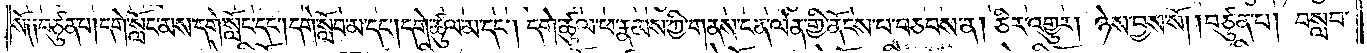སོ༑ ༑བཙུན་པ། དགེ་སློང་མས་དགེ་སློང་དང༌། དགེ་སློབ་མ་དང༌། དགེ་ཚུལ་མ་དང༌། དགེ་ཚུལ་ཕ་རྣམས་ཀྱི་གནས་ངན་ལེན་གྱི་ནོངས་པ་བཅབས་ན། ཅིར་འགྱུར། ཉེས་བྱས་སོ། །བཙུན་པ། བསླབ་
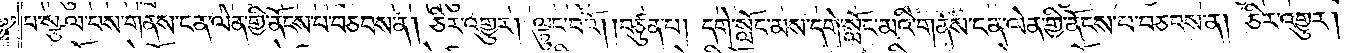པ་སྩལ་པས་གནས་ངན་ལེན་གྱི་ནོངས་པ་བཅབས་ན། ཅིར་འགྱུར། ལྟུང་བའོ། །བཙུན་པ། དགེ་སློང་མས་དགེ་སློང་མའི་གནས་ངན་ལེན་གྱི་ནོངས་པ་བཅབས་ན། ཅིར་འགྱུར།
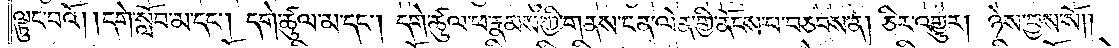ལྟུང་བའོ། །དགེ་སློབ་མ་དང༌། དགེ་ཚུལ་མ་དང༌། དགེ་ཚུལ་ཕ་རྣམས་ཀྱི་གནས་ངན་ལེན་གྱི་ནོངས་པ་བཅབས་ན། ཅིར་འགྱུར། ཉེས་བྱས་སོ༎
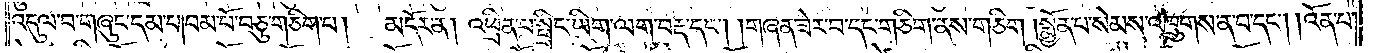འདུལ་བ་གཞུང་དམ་པ། བམ་པོ་བཅུ་གཅིག་པ། མདོར་ན། འཕྲིན་པ་སྤྲིང་ཡིག་ལག་བརྡ་དང༌། །གཞན་ཟེར་བ་དང་གཅིག་ནས་གཅིག །སྨྱོན་པ་སེམས་འཁྲུགས་ན་བ་དང༌། །འོན་པ་
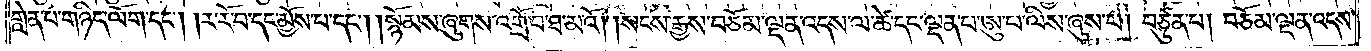གླེན་པ་གཉིད་ལོག་དང༌། །ར་རོ་བ་དང་མྱོས་པ་དང༌། །སྙོམས་ཞུགས་འགྲོ་བ་ཐ་མ་འོ། །སངས་རྒྱས་བཅོམ་ལྡན་འདས་ལ་ཚེ་དང་ལྡན་པ་ཨུ་པ་ལིས་ཞུས་པ། བཙུན་པ། བཅོམ་ལྡན་འདས་
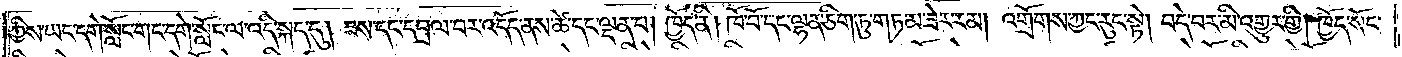ཀྱིས་ཡང་དགེ་སློང་གང་དགེ་སློང་ལ་འདི་སྐད་དུ། ཟས་དང་དབྲལ་བར་འདོད་ནས་ཚེ་དང་ལྡན་པ། ཁྱོད་ནི། ཁོ་བོ་དང་ལྷན་ཅིག་ཏུ་གཏམ་ཟེར་རམ། འགྲོགས་ཀྱང་རུང་སྟེ། བདེ་བར་མི་འགྱུར་གྱི། ཁྱོད་སོང་
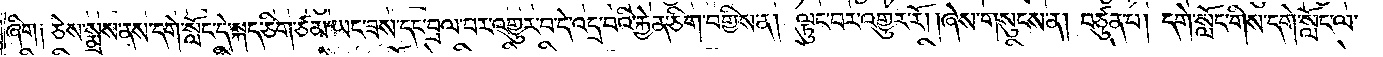ཞིག༑ ཅེས་སྨྲས་ནས་དགེ་སློང་དེ་སྐད་ཅིག་ཙམ་ཡང་ཟས་དང་བྲལ་བར་འགྱུར་བ་དེ་འདྲ་བའི་རྐྱེན་ཅིག་བགྱིས་ན། ལྟུང་བར་འགྱུར་རོ། །ཞེས་གསུངས་ན། བཙུན་པ། དགེ་སློང་གིས་དགེ་སློང་ལ་
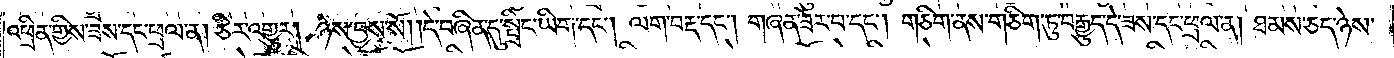འཕྲིན་གྱིས་ཟས་དང་ཕྲལ་ན། ཅིར་འགྱུར། ཉེས་བྱས་སོ། །དེ་བཞིན་དུ་སྤྲིང་ཡིག་དང༌། ལག་བརྡ་དང༌། གཞན་ཟེར་བ་དང༌། གཅིག་ནས་གཅིག་ཏུ་བརྒྱུད་དེ་ཟས་དང་ཕྲལ་ན། ཐམས་ཅད་ཉེས་
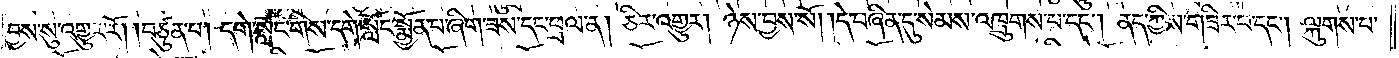བྱས་སུ་འགྱུར་རོ། །བཙུན་པ། དགེ་སློང་གིས་དགེ་སློང་སྨྱོན་པ་ཞིག་ཟས་དང་ཕྲལ་ན། ཅིར་འགྱུར། ཉེས་བྱས་སོ། །དེ་བཞིན་དུ་སེམས་འཁྲུགས་པ་དང༌། ནད་ཀྱིས་གཟིར་པ་དང༌། ལྐུགས་པ་
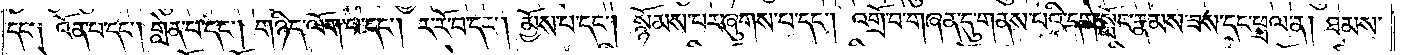དང་༑ འོན་པ་དང༌། གླེན་པ་དང༌། གཉིད་ལོག་པ་དང༌། ར་རོ་བ་དང༌། མྱོས་པ་དང༌། སྙོམས་པར་ཞུགས་པ་དང༌། འགྲོ་བ་གཞན་དུ་གནས་པའི་དགེ་སློང་རྣམས་ཟས་དང་ཕྲལ་ན། ཐམས་
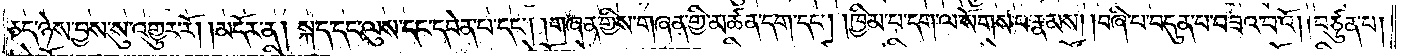ཅད་ཉེས་བྱས་སུ་འགྱུར་རོ། །མདོར་ན། སྐད་དང་ལུས་དང་དབེན་པ་དང༌། །གཞན་གྱིས་གཞན་གྱི་མཚན་དག་དང༌། །ཁྱིམ་པ་དག་ལ་སོགས་པ་རྣམས། །བཞི་པ་བདུན་པ་བཟའ་བའོ། །བཙུན་པ།
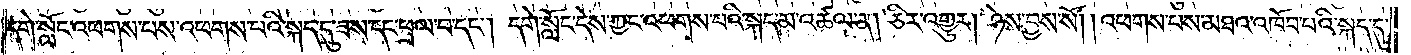དགེ་སློང་འཕགས་པས་འཕགས་པའི་སྐད་དུ་ཟས་དང་ཕྲལ་བ་དང༌། དགེ་སློང་དེས་ཀྱང་འཕགས་པའི་སྐད་མ་འཚལ་ན། ཅིར་འགྱུར། ཉེས་བྱས་སོ། །འཕགས་པས་མཐའ་འཁོབ་པའི་སྐད་དུ་
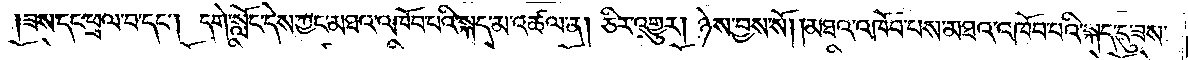ཟས་དང་ཕྲལ་བ་དང༌། དགེ་སློང་དེས་ཀྱང་མཐའ་འཁོབ་པའི་སྐད་མ་འཚལ་ན། ཅིར་འགྱུར། ཉེས་བྱས་སོ། །མཐའ་འཁོབ་པས་མཐའ་འཁོབ་པའི་སྐད་དུ་ཟས་
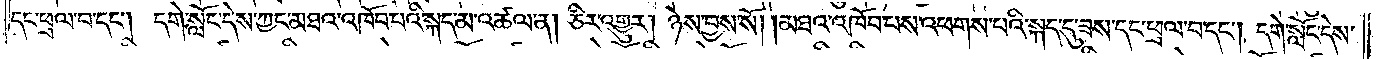དང་ཕྲལ་བ་དང༌། དགེ་སློང་དེས་ཀྱང་མཐའ་འཁོབ་པའི་སྐད་མ་འཚལ་ན། ཅིར་འགྱུར། ཉེས་བྱས་སོ། །མཐའ་འཁོབ་པས་འཕགས་པའི་སྐད་དུ་ཟས་དང་ཕྲལ་བ་དང༌། དགེ་སློང་དེས་
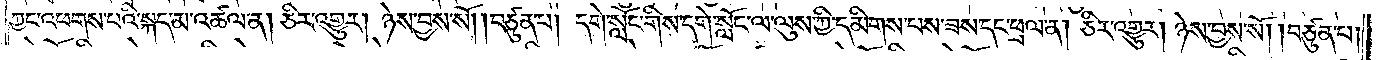ཀྱང་འཕགས་པའི་སྐད་མ་འཚལ་ན། ཅིར་འགྱུར། ཉེས་བྱས་སོ། །བཙུན་པ། དགེ་སློང་གིས་དགེ་སློང་ལ་ལུས་ཀྱི་དམིགས་པས་ཟས་དང་ཕྲལ་ན། ཅིར་འགྱུར། ཉེས་བྱས་སོ། །བཙུན་པ།
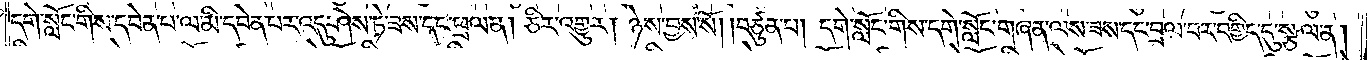དགེ་སློང་གིས་དབེན་པ་ལ་མི་དབེན་པར་འདུ་ཤེས་ཏེ་ཟས་དང་ཕྲལ་ན། ཅིར་འགྱུར། ཉེས་བྱས་སོ། །བཙུན་པ། དགེ་སློང་གིས་དགེ་སློང་གཞན་ལས་ཟས་དང་བྲལ་བར་བགྱིད་དུ་སྩལ་ན།
